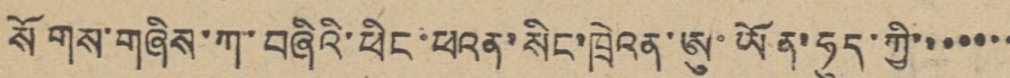སོགས་གཞིས་ཀ་བཞིའི་ཕིང་ཕའན་སིང་ཁྲེའན་ཨུ་ཡོན་ཧུད་ཀྱི་་་་་་་
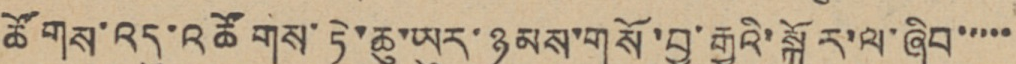ཚོགས་འདུ་འཚོགས་ཏེ་ཆུ་ཡུར་ཉམས་གསོ་བྱ་རྒྱུའི་སྐོར་ལ་ཞིབ་་་་་
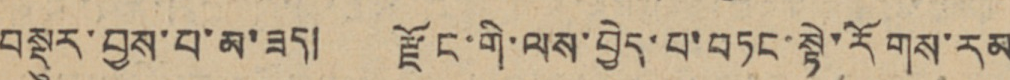བསྡུར་བྱས་པ་མ་ཟད། རྫོང་གི་ལས་བྱེད་པ་བཏང་སྟེ་རོགས་རམ
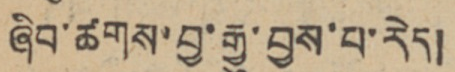ཞིབ་ཚགས་བྱ་རྒྱུ་བྱས་པ་རེད།
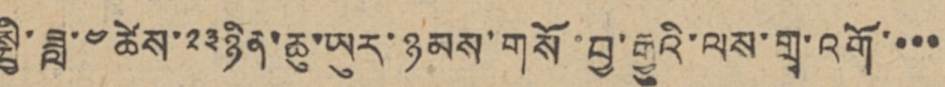སྤྱི་ཟླ་༤ཚེས་༢༣ཉིན་ཆུ་ཡུར་ཉམས་གསོ་བྱ་རྒྱུའི་ལས་གྲྭ་འགོ་་་་
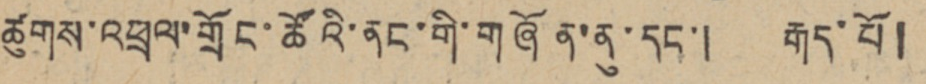ཚུགས་འཕྲལ་གྲོང་ཚོའི་ནང་གི་གཞོན་ནུ་དང་། རྒད་པོ།
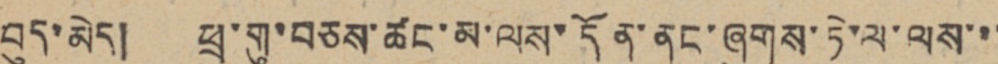བུད་མེད། ཕྲུ་གུ་བཅས་ཚང་མ་ལས་དོན་ནང་ཞུགས་ཏེ་ལ་ལས་་་
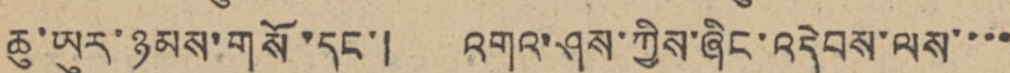ཆུ་ཡུར་ཉམས་གསོ་དང་། འགའ་ཤས་ཀྱིས་ཞིང་འདེབས་ལས་་་་
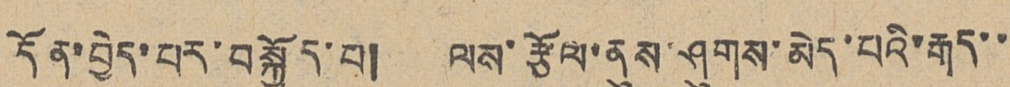དོན་བྱེད་པར་བསྐྱོད་པ། ལས་རྩོལ་ནུས་ཤུགས་མེད་པའི་རྒད་་
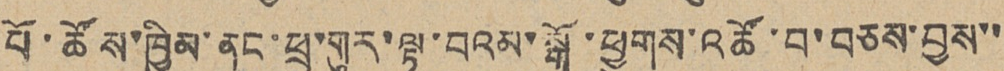པོ་ཚོས་ཁྱིམ་ནང་ཕྲུ་གུར་ལྟ་བའམ་སྒོ་ཕྱུགས་འཚོ་བ་བཅས་བྱས་་
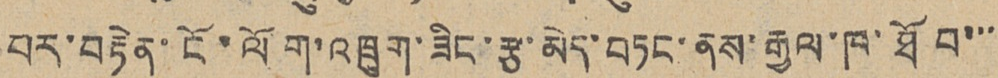པར་བརྟེན་ངོ་ལོག་འཁྲུག་ཟིང་རྩ་མེད་བཏང་ནས་རྒྱལ་ཁ་ཐོབ་་་་
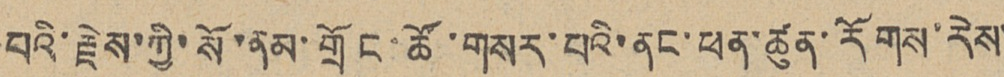པའི་རྗེས་ཀྱི་སོ་ནམ་གྲོང་ཚོ་གསར་པའི་ནང་ཕན་ཚུན་རོགས་རེས་
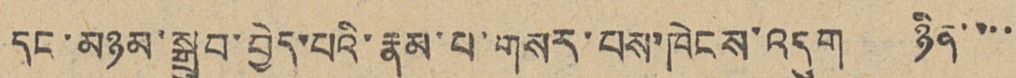དང་མཉམ་སྒྲུབ་བྱེད་པའི་རྣམ་པ་གསར་པས་ཁེངས་འདུག ཉིན་་་་
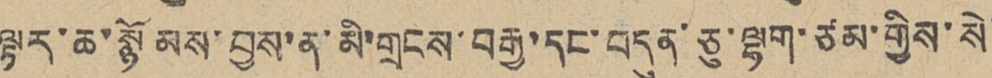ལྟར་ཆ་སྙོམས་བྱས་ན་མི་གྲངས་བརྒྱ་དང་བདུན་ཅུ་ལྷག་ཙམ་གྱིས་སེ་
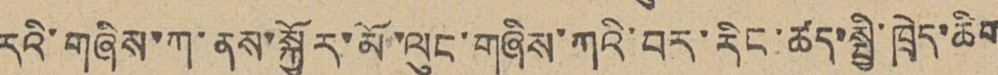རའི་གཞིས་ཀ་ནས་སྐྱོར་མོ་ལུང་གཞིས་ཀའི་བར་རིང་ཚད་སྤྱི་ཁྲེད་ཆིག
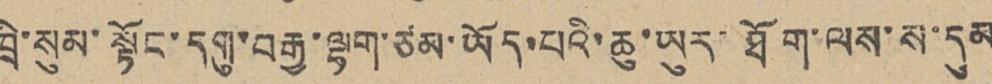ཁྲི་སུམ་སྟོང་དགུ་བརྒྱ་ལྷག་ཙམ་ཡོད་པའི་ཆུ་ཡུར་ཐོག་ལས་ས་དུམ
